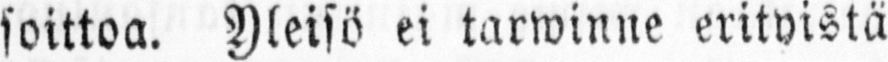soittoa. Yleisö ei tarwinne erityistä
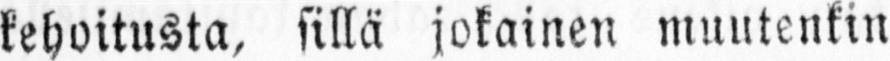kehoitusta, sillä jokainen muutenkin
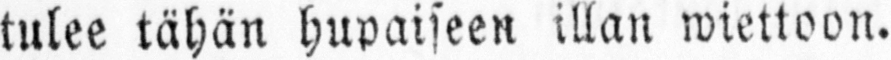tulee tähän hupaiseen illan wiettoon.
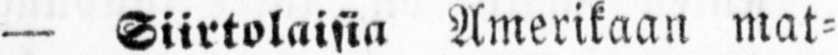— Siirtolaisia Amerikaan mat-
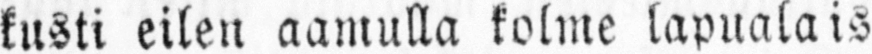kusti eilen aamulla kolme lapualais-
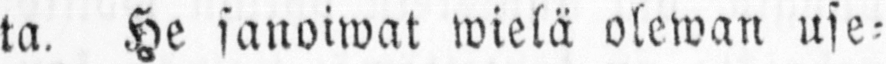ta. He sanoiwat wielä olewan use-
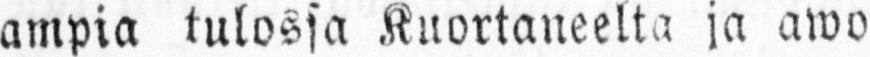ampia tulossa Kuortaneelta ja awo-
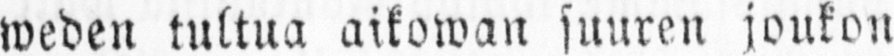weden tultua aikowan suuren joukon
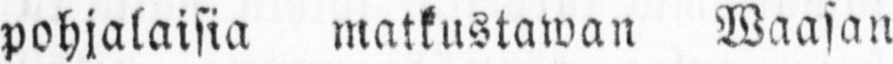pohjalaisia matkustawan Waasan
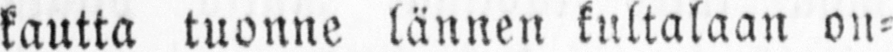kautta tuonne lännen kultalaan on-
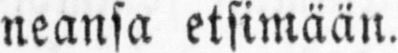neansa etsimään.
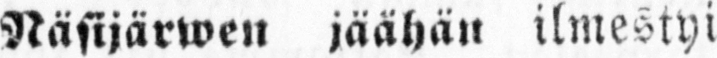— Näsijärwen jäähän ilmestyi
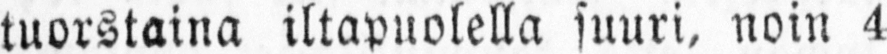tuorstaina iltapuolella suuri, noin 4
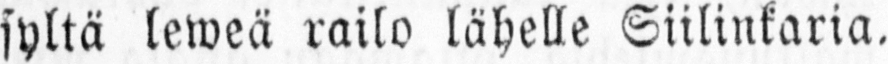syltä leweä railo lähelle Siilinkaria,
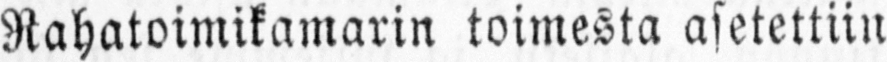Rahatoimikamarin toimesta asetettiin
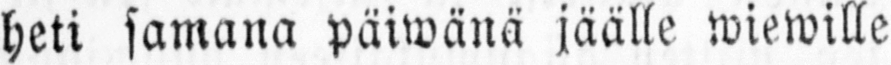heti samana päiwänä jäälle wiewille
